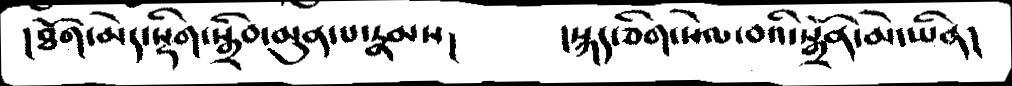།ཐོག་མེད་སྡིག་སྒྲིབ་མུན་པ་རྣམས།    །སྐད་ཅིག་སེལ་བའི་སྒྲོན་མེ་ཡིན།
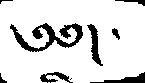༄༅།  ་
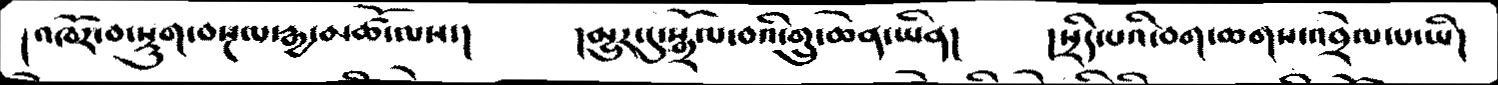།འཁོར་བ་སྡུག་བསྔལ་རྒྱ་མཚོ་ལས་།   །མྱུར་དུ་སྒྲོལ་བའི་གྲུ་ཆེན་ཡིན།   །སྲིད་པའི་བག་ཆགས་འབྲེལ་པ་ཡི།
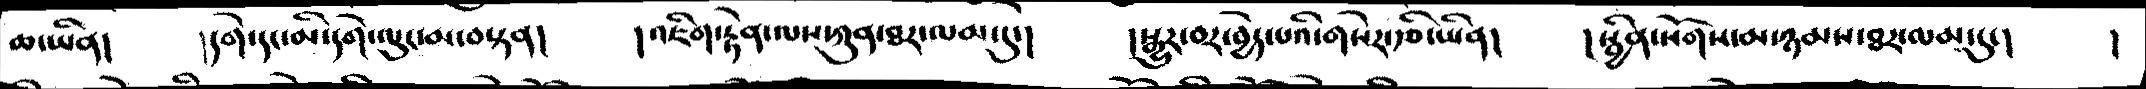ཆ་ཡིན།   །དགེ་དང་མི་དགེ་ལུང་མ་བསྟན།  །འཇིག་རྟེན་ལས་ཀུན་ཐར་ལམ་དུ་།   །སྒྱུར་བར་བྱེད་པའི་གསེར་རྩི་ཡིན།  །སྦྱིན་སོགས་མ་ཉམས་ཐར་ལམ་དུ་།  །
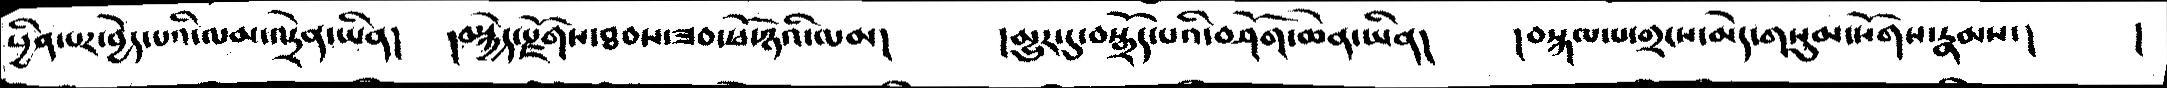ཕྱིན་པར་བྱེད་པའི་ལམ་འདྲེན་ཡིན།   །བསྐྱེད་རྫོགས་ཐབས་ཟབ་ཕོ་ཉའི་ལམ།   །མྱུར་དུ་བསྒྲོད་པའི་བཤོག་ཆེན་ཡིན།  །བསྐལ་པ་གྲངས་མེད་གསུམ་སོགས་རྣམས་།  །
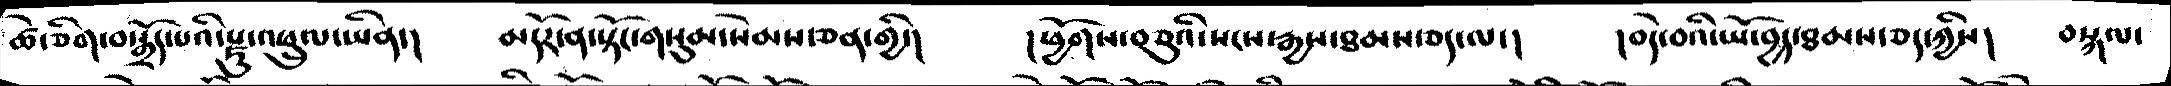ཚེ་ཅིག་བསྒྲོད་པའི་རྫུ་འཕྲུལ་ཡིན་།   མདོར་ན་སྟོང་གསུམ་སེམས་ཅན་གྱི་།  །ཕྱོགས་བཅུའི་སངས་རྒྱས་ཐམས་ཅད་ལ་།   །བདེ་བའི་ཡོ་བྱད་ཐམས་ཅད་ཀྱིས།  བསྐལ་
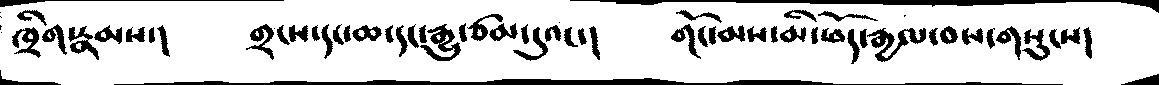ཁྲིག་རྣམས་།    གྲངས་དང་ཆ་དང་རྒྱུ་ཙམ་དུའང་།   གོང་མས་མི་ཕོད་རྒྱལ་བས་གསུངས།
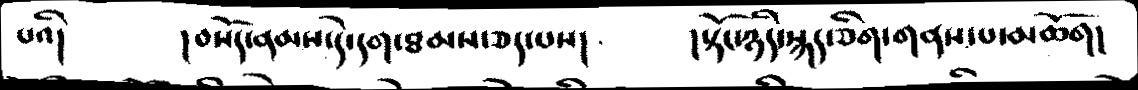པའི།    །བསོད་ནམས་དེ་དག་ཐམས་ཅད་པས།    །སྟོང་ཉིད་སྐད་ཅིག་གནས་པ་མཆོག།
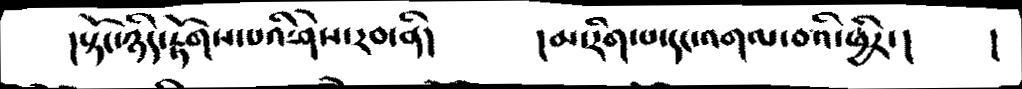།སྟོང་ཉིད་རྟོགས་པའི་ཤེས་རབ་ནི།    །མ་རིག་པ་དང་འགལ་བའི་ཕྱིར་།    །
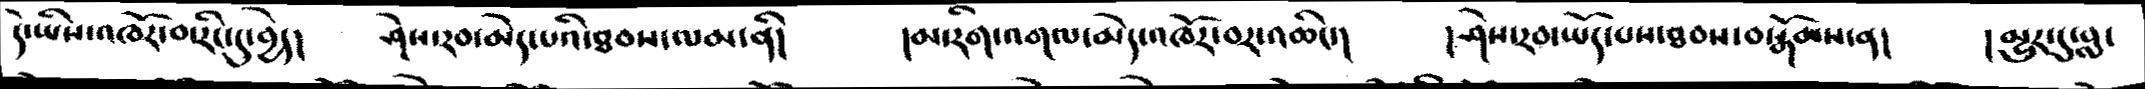དེ་ཡིས་འཁོར་བ་རིང་དུ་བྱེད།  ཤེས་རབ་མེད་པའི་ཐབས་ལམ་ནི།   །མ་རིག་འགལ་མེད་འཁོར་བར་འཆིང་།  །ཤེས་རབ་ཡོད་པས་ཐབས་བསྒོམས་ན།  །མྱུར་དུ་བླ་
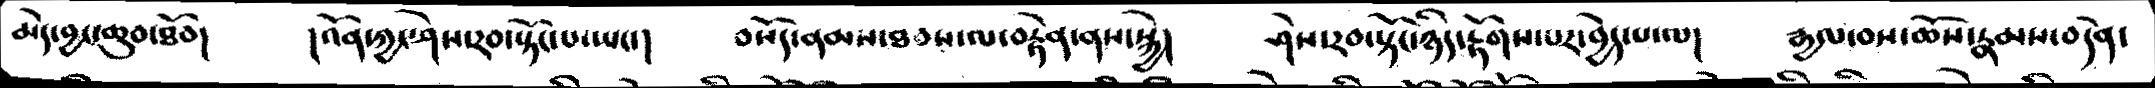མེད་བྱང་ཆུབ་ཐོབ།   །འོན་ཀྱང་ཤེས་རབ་སྟོང་པ་ཡང་།   བསོད་ནམས་ཐབས་ལ་བརྟེན་ནས་སྐྱེ།   ཤེས་རབ་སྟོང་ཉིད་རྟོགས་པར་བྱེད་པ་ལ།   རྒྱལ་བས་ཆོས་རྣམས་བདེན་
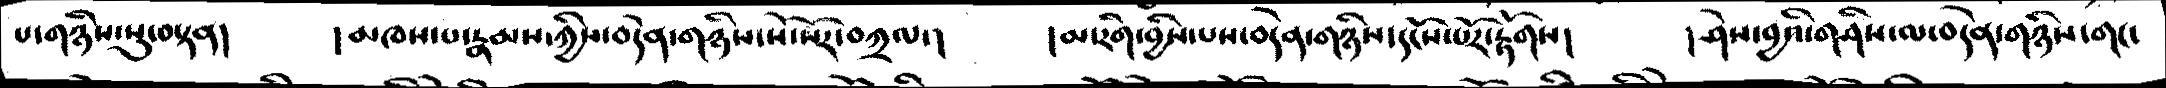པ་གཉིས་སུ་བསྟན།    །མཁས་པ་རྣམས་ཀྱིས་བདེན་གཉིས་སོ་སོར་བཀྲལ་།   །མ་རིག་བྱིས་པས་བདེན་གཉིས་དངོས་པོར་རྟོགས།   །ཤེས་བྱའི་གཤིས་ལ་བདེན་གཉིས་གང་
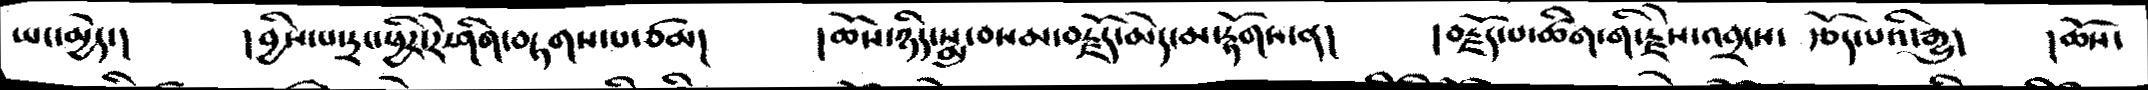ཡང་མྱེད་།   །བྱིས་པ་དྲང་ཕྱིར་རེ་ཤིག་བཏགས་པ་ཙམ།   །ཆོས་ཉིད་སྨྲ་བསམ་བརྗོད་མེད་མ་རྟོགས་ན།   །བརྗོད་པ་ཚིག་གི་རྗེས་འབྲངས་  རྩོད་པའི་རྒྱུ།   །ཆོས་
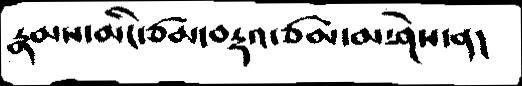རྣམས་མིང་ཙམ་བརྡའ་ཙམ་མ་ཤེས་ན།
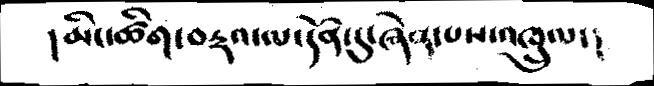།མིང་ཚིག་བརྡའ་ལ་དོན་དུ་ཞེན་པས་འཁྲུལ་།
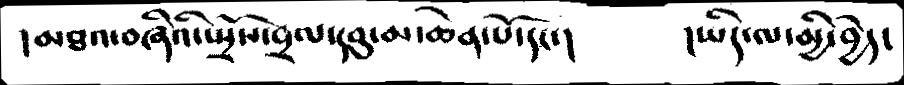།མཐའབཞིའི་སྤྲོས་བྲལ་དབུ་མ་ཆེན་པོ་དང་།     །ཡིད་ལ་མྱི་བྱེད་
